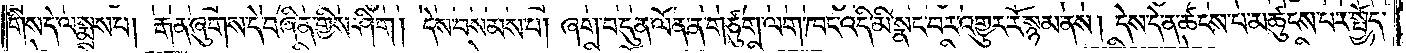གིས་དེ་ལ་སྨྲས་པ། རྒན་ཞུགས་དེ་བཞིན་གྱིས་ཤིག། དེས་བསམས་པ། ཞག་བདུན་ལོན་ན་གཙུག་ལག་ཁང་འདི་མི་སྣང་བར་འགྱུར་རོ་སྙམ་ནས། དེས་དེ་ན་ཚངས་པ་མཚུངས་པར་སྤྱོད་
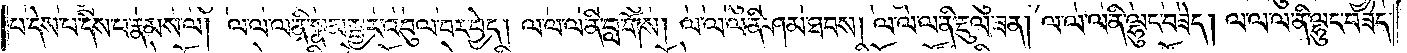པ་དེས་པ་དེས་པ་རྣམས་ལ། ལ་ལ་ལ་ནི་སྣམ་སྦྱར་འབུལ་བར་བྱེད། ལ་ལ་ལ་ནི་བླ་གོས། ལ་ལ་ལ་ནི་ཤམ་ཐབས། ལ་ལ་ལ་ནི་རྡུལ་ཟན། ལ་ལ་ལ་ནི་ལྷུང་བཟེད། ལ་ལ་ལ་ནི་ལྷུང་བཟེད་
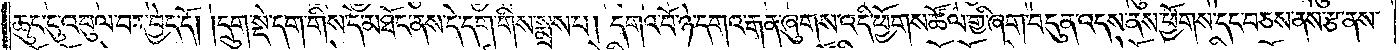ཆུང་ངུ་འབུལ་བར་བྱེད་དོ། །དྲུག་སྡེ་དག་གིས་དེ་མཐོང་ནས་དེ་དག་གིས་སྨྲས་པ། དགའ་བོ་ཉེ་དགའ་རྒན་ཞུགས་འདི་ཕྱོགས་ཚོལ་གྱི་ཞག་བདུན་འདས་ནས་ཕྱོགས་དང་བཅས་ནས་རྩ་ནས་
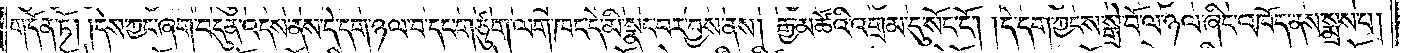གདོན་ཏོ། །དེས་ཀྱང་ཞག་བདུན་འདས་ནས་དེ་དག་ཉལ་བ་དང་གཙུག་ལག་ཁང་དེ་མི་སྣང་བར་བྱས་ནས། རྒྱ་མཚོའི་འགྲམ་དུ་སོང་ངོ༌། །དེ་དག་ཀྱང་ས་སྒྲེ་བོ་ལ་ཉལ་ཞིང་འཁོད་ནས་སྨྲས་པ།
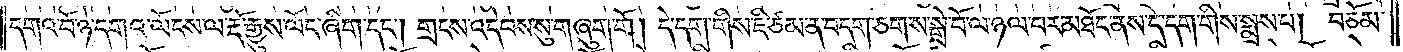དགའ་བོ་ཉེ་དགའ་ལོངས་ལ་རྡོ་རྒྱུས་ལོང་ཞིག་དང༌། གྲངས་འདེབས་སུ་གཞུག་གོ། དེ་དག་གིས་ཇི་ཙམ་ན་བདག་ཅག་ས་སྒྲེ་བོ་ལ་ཉལ་བར་མཐོང་ནས་དེ་དག་གིས་སྨྲས་པ། བཅོམ་
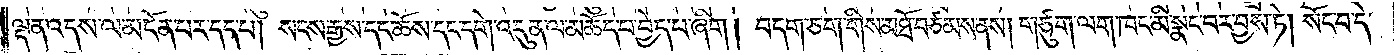ལྡན་འདས་ལ་མངོན་པར་དད་པ། སངས་རྒྱས་དང་ཆོས་དང་དགེ་འདུན་ལ་མཆོད་པ་བྱེད་པ་ཞིག། བདག་ཅག་གིས་མཐོ་བཙམས་ནས། གཙུག་ལག་ཁང་མི་སྣང་བར་བྱས་ཏེ། སོང་བ་དེ་
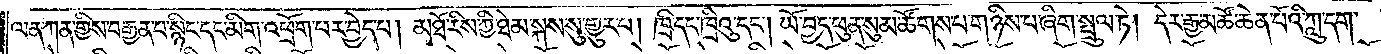ལན་ཀན་གྱིས་བརྒྱན་པ་སྙིང་དང་མིག་འཕྲོག་པར་བྱེད་པ། མཐོ་རིས་ཀྱི་ཐེམ་སྐས་སུ་གྱུར་པ། ཁྲི་དང་ཁྲིའུ་དང༌། ཡོ་བྱད་ཕུན་སུམ་ཚོགས་པ་གཉིས་པ་ཞིག་སྤྲུལ་ཏེ། དེར་རྒྱ་མཚོ་ཆེན་པོའི་ཀླུ་དག་
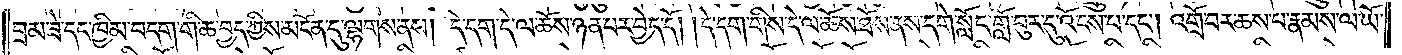བྲམ་ཟེ་དང་ཁྱིམ་བདག་གི་ཆ་བྱད་ཀྱིས་མངོན་དུ་ལྷགས་ནས། དེ་དག་དེ་ལ་ཆོས་ཉན་པར་བྱེད་དོ། །དེ་དག་གིས་དེ་ལ་ཆོས་ཐོས་ནས་དགེ་སློང་གློ་བུར་དུ་འོངས་པ་དང༌། འགྲོ་བར་ཆས་པ་རྣམས་ལ་ཡོ་
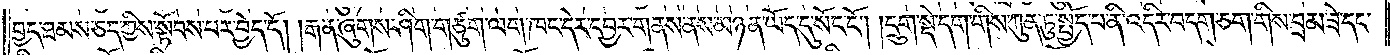བྱད་ཐམས་ཅད་ཀྱིས་སྟོབས་པར་བྱེད་དོ། །རྒན་ཞུགས་ཤིག་གཙུག་ལག་ཁང་དེར་དབྱར་གནས་ནས་མཉན་ཡོད་དུ་སོང་ངོ༌། །དྲུག་སྡེ་དག་གིས་ཀུན་ཏུ་སྤྱོད་པ་ནི་འདིར་བདག་ཅག་གིས་བྲམ་ཟེ་དང་
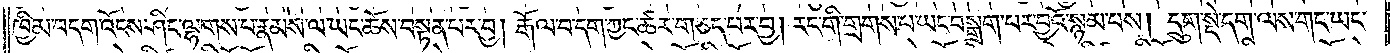ཁྱིམ་བདག་འོངས་ཤིང་ལྷགས་པ་རྣམས་ལ་ཡང་ཆོས་བསྟན་པར་བྱ། རྒོལ་བ་དག་ཀྱང་ཚར་གཅད་པར་བྱ། རང་གི་གྲགས་པ་ཡང་བསྒྲག་པར་བྱའོ་སྙམ་པས། དྲུག་སྡེ་དག་ལས་གང་ཡང་
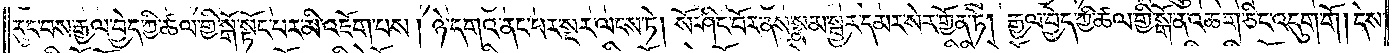རུང་བས་རྒྱལ་བྱེད་ཀྱི་ཚལ་གྱི་སྒོ་སྟོང་པར་མི་འཇོག་པས། ཉེ་དགའ་ནང་པར་སྔར་ལངས་ཏེ། སོ་ཤིང་བོར་ནས་སྣམ་སྦྱར་དམར་སེར་གྱོན་ཏེ། རྒྱལ་བྱེད་ཀྱི་ཚལ་གྱི་སྒོ་ན་འཆག་ཅིང་འདུག་གོ། དེས་
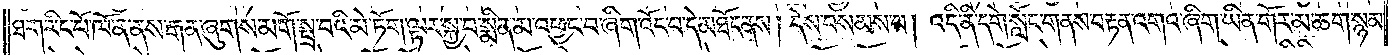ཐག་རིང་པོ་ཁོ་ན་ནས་རྒན་ཞུགས་མགོ་སྤྲ་བའི་མེ་ཏོག་ལྟར་སྐྱ་བ་སྨིན་མ་འཕྱང་བ་ཞིག་འོང་བ་དེ་མཐོང་ནས། དེས་བསམས་པ། འདི་ནི་དགེ་སློང་གནས་བརྟན་འགའ་ཞིག་ཡིན་གོར་མ་ཆག་སྙམ་
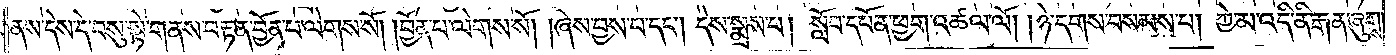ནས་དེས་དེ་བསུ་སྟེ་གནས་བརྟན་བྱོན་པ་ལེགས་སོ། །བྱོན་པ་ལེགས་སོ། །ཞེས་བྱས་པ་དང༌། དེས་སྨྲས་པ། སློབ་དཔོན་ཕྱག་འཚལ་ལོ། །ཉེ་དགས་བསམས་པ། ཀྱེ་མ་འདི་ནི་རྒན་ཞུགས་
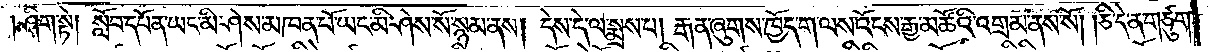ཤིག་སྟེ། སློབ་དཔོན་ཡང་མི་ཤེས་མཁན་པོ་ཡང་མི་ཤེས་སོ་སྙམ་ནས། དེས་དེ་ལ་སྨྲས་པ། རྒན་ཞུགས་ཁྱོད་ག་ལས་འོངས་རྒྱ་མཚོའི་འགྲམ་ནས་སོ། །ཅི་དེ་ན་གཙུག་
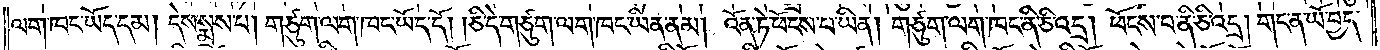ལག་ཁང་ཡོད་དམ། དེས་སྨྲས་པ། གཙུག་ལག་ཁང་ཡོད་དོ། །ཅི་དེ་གཙུག་ལག་ཁང་ཡིན་ནམ། འོན་ཏེ་ཕོངས་པ་ཡིན། གཙུག་ལག་ཁང་ནི་ཅི་འདྲ། ཕོངས་པ་ནི་ཅི་འདྲ། གང་ན་ཡོ་བྱད་
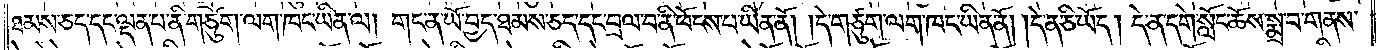ཐམས་ཅད་དང་ལྡན་པ་ནི་གཙུག་ལག་ཁང་ཡིན་ལ། གང་ན་ཡོ་བྱད་ཐམས་ཅད་དང་བྲལ་བ་ནི་ཕོངས་པ་ཡིན་ནོ། །དེ་གཙུག་ལག་ཁང་ཡིན་ནོ། །དེ་ན་ཅི་ཡོད། དེ་ན་དགེ་སློང་ཆོས་སྨྲ་བ་གནས་
